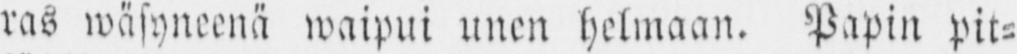ras wäsyneenä waipui unen helmaan. Papin pit-
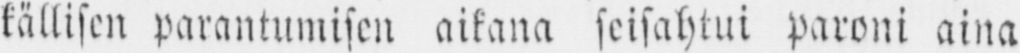källisen parantumisen aikana seisahtui paroni aina
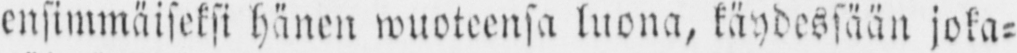ensimmäiseksi hänen wuoteensa luona, käydessään joka-
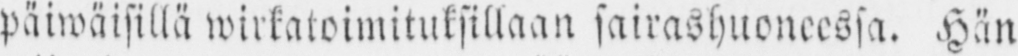päiwäisillä wirkatoimituksillan sairashuoneessa. Hän
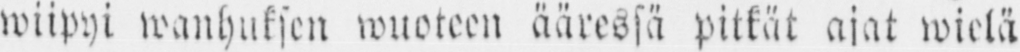wiipyi wanhuksen wuoteen ääressä pitkät ajat wielä
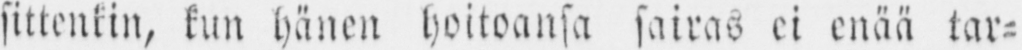sittenkin, kun hänen hoitoansa sairas ei enää tar-
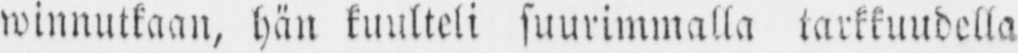winnutkaan, hän kuulteli suurimmalla tarkkuudella
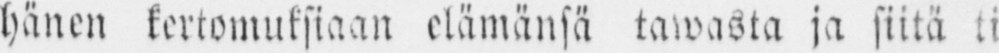hänen kertomuksiaan elämänsä tawasta ja sillä ti-
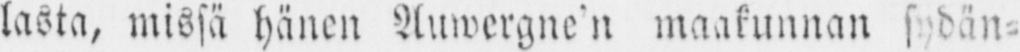lasta, missä hänen Auwergne’n maakunnan sydän-
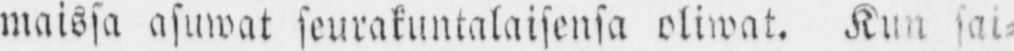maissa asuwat seurakuntataisensa oliwat. Kun sai-
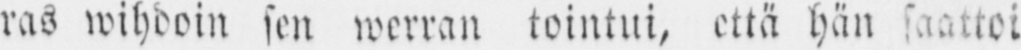ras wihdoin sen werran tointui, että hän saattoi
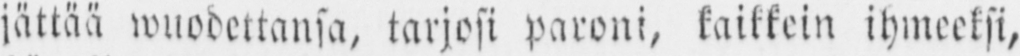jättää wuodettansa, tarjosi paroni, kaikkein ihmeeksi,
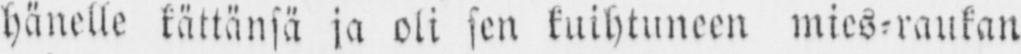hänelle kättänsä ja oli sen kuihtuneen mies-raukan
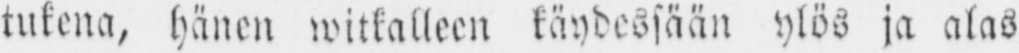tukena, hänen witkalleen käydessään ylös ja alas
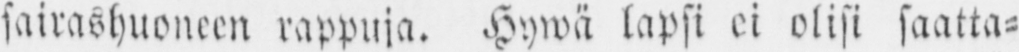sairashuoneen rappuja. Hywä lapsi ei olisi saatta-
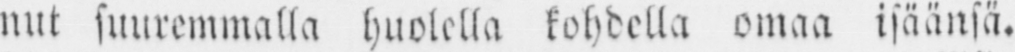nut suuremmalla huolella kohdella omaa isäänsä.
